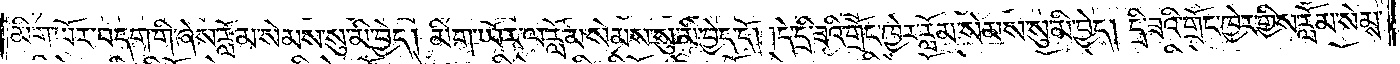མིག་ཡོར་བདག་གི་ཞེས་རློམ་སེམས་སུ་མི་བྱེད། མིག་ཡོར་ལ་རློམ་སེམས་སུ་མི་བྱེད་དོ། །དེ་དྲི་ཟའི་གྲོང་ཁྱེར་རློམ་སེམས་སུ་མི་བྱེད། དྲི་ཟའི་གྲོང་ཁྱེར་གྱིས་རློམ་སེམས་
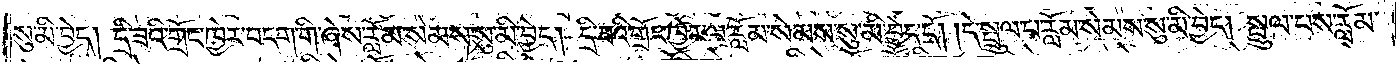སུ་མི་བྱེད། དྲི་ཟའི་གྲོང་ཁྱེར་བདག་གི་ཞེས་རློམ་སེམས་སུ་མི་བྱེད། དྲི་ཟའི་གྲོང་ཁྱེར་ལ་རློམ་སེམས་སུ་མི་བྱེད་དོ། །དེ་སྤྲུལ་པ་རློམ་སེམས་སུ་མི་བྱེད། སྤྲུལ་པས་རློམ་
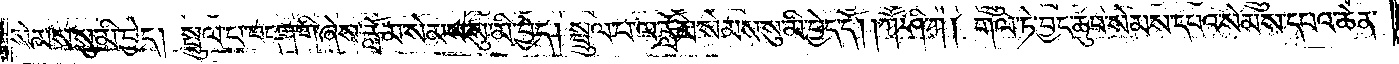སེམས་སུ་མི་བྱེད། སྤྲུལ་པ་བདག་གི་ཞེས་རློམ་སེམས་སུ་མི་བྱེད། སྤྲུལ་པ་ལ་རློམ་སེམས་སུ་མི་བྱེད་དོ། །ཀཽ་ཤི་ཀ། གལ་ཏེ་བྱང་ཆུབ་སེམས་དཔའ་སེམས་དཔའ་ཆེན་
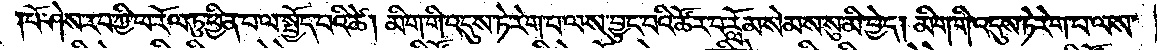པོ་ཤེས་རབ་ཀྱི་ཕ་རོལ་ཏུ་ཕྱིན་པ་ལ་སྤྱོད་པའི་ཚེ། མིག་གི་འདུས་ཏེ་རེག་པ་ལས་བྱུང་བའི་ཚོར་བ་རློམ་སེམས་སུ་མི་བྱེད། མིག་གི་འདུས་ཏེ་རེག་པ་ལས་
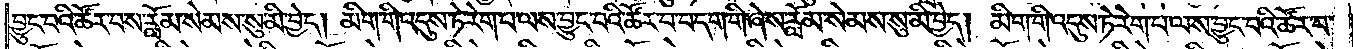བྱུང་བའི་ཚོར་བས་རློམ་སེམས་སུ་མི་བྱེད། མིག་གི་འདུས་ཏེ་རེག་པ་ལས་བྱུང་བའི་ཚོར་བ་བདག་གི་ཞེས་རློམ་སེམས་སུ་མི་བྱེད། མིག་གི་འདུས་ཏེ་རེག་པ་ལས་བྱུང་བའི་ཚོར་བ་
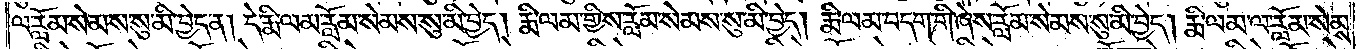ལ་རློམ་སེམས་སུ་མི་བྱེད་ན། དེ་རྨི་ལམ་རློམ་སེམས་སུ་མི་བྱེད། རྨི་ལམ་གྱིས་རློམ་སེམས་སུ་མི་བྱེད། རྨི་ལམ་བདག་གི་ཞེས་རློམ་སེམས་སུ་མི་བྱེད། རྨི་ལམ་ལ་རློམ་སེམས་
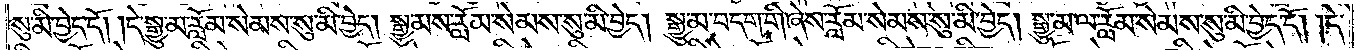སུ་མི་བྱེད་དོ། །དེ་སྒྱུ་མ་རློམ་སེམས་སུ་མི་བྱེད། སྒྱུ་མས་རློམ་སེམས་སུ་མི་བྱེད། སྒྱུ་མ་བདག་གི་ཞེས་རློམ་སེམས་སུ་མི་བྱེད། སྒྱུ་མ་ལ་རློམ་སེམས་སུ་མི་བྱེད་དོ། །དེ་
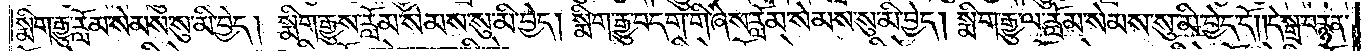སྨིག་རྒྱུ་རློམ་སེམས་སུ་མི་བྱེད། སྨིག་རྒྱུས་རློམ་སེམས་སུ་མི་བྱེད། སྨིག་རྒྱུ་བདག་གི་ཞེས་རློམ་སེམས་སུ་མི་བྱེད། སྨིག་རྒྱུ་ལ་རློམ་སེམས་སུ་མི་བྱེད་དོ། །དེ་སྒྲ་བརྙན་
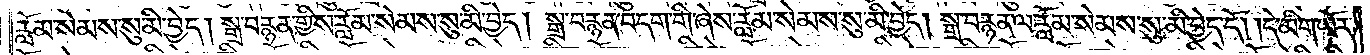རློམ་སེམས་སུ་མི་བྱེད། སྒྲ་བརྙན་གྱིས་རློམ་སེམས་སུ་མི་བྱེད། སྒྲ་བརྙན་བདག་གི་ཞེས་རློམ་སེམས་སུ་མི་བྱེད། སྒྲ་བརྙན་ལ་རློམ་སེམས་སུ་མི་བྱེད་དོ། །དེ་མིག་ཡོར་
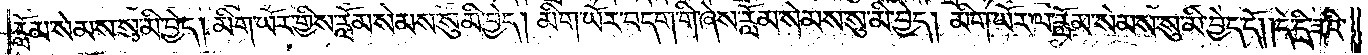རློམ་སེམས་སུ་མི་བྱེད། མིག་ཡོར་གྱིས་རློམ་སེམས་སུ་མི་བྱེད། མིག་ཡོར་བདག་གི་ཞེས་རློམ་སེམས་སུ་མི་བྱེད། མིག་ཡོར་ལ་རློམ་སེམས་སུ་མི་བྱེད་དོ། །དེ་དྲི་ཟའི་
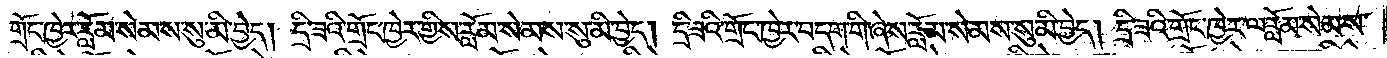གྲོང་ཁྱེར་རློམ་སེམས་སུ་མི་བྱེད། དྲི་ཟའི་གྲོང་ཁྱེར་གྱིས་རློམ་སེམས་སུ་མི་བྱེད། དྲི་ཟའི་གྲོང་ཁྱེར་བདག་གི་ཞེས་རློམ་སེམས་སུ་མི་བྱེད། དྲི་ཟའི་གྲོང་ཁྱེར་ལ་རློམ་སེམས་
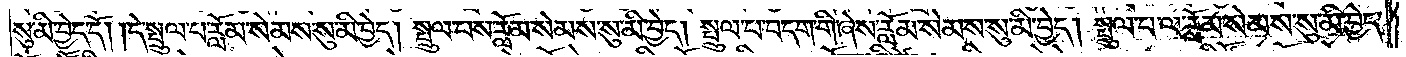སུ་མི་བྱེད་དོ། །དེ་སྤྲུལ་པ་རློམ་སེམས་སུ་མི་བྱེད། སྤྲུལ་པས་རློམ་སེམས་སུ་མི་བྱེད། སྤྲུལ་པ་བདག་གི་ཞེས་རློམ་སེམས་སུ་མི་བྱེད། སྤྲུལ་པ་ལ་རློམ་སེམས་སུ་མི་བྱེད་
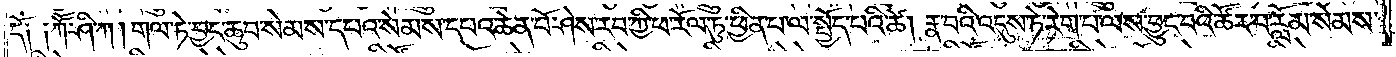དོ༑ ༑ཀཽ་ཤི་ཀ། གལ་ཏེ་བྱང་ཆུབ་སེམས་དཔའ་སེམས་དཔའ་ཆེན་པོ་ཤེས་རབ་ཀྱི་ཕ་རོལ་ཏུ་ཕྱིན་པ་ལ་སྤྱོད་པའི་ཚེ། རྣ་བའི་འདུས་ཏེ་རེག་པ་ལས་བྱུང་བའི་ཚོར་བ་རློམ་སེམས་
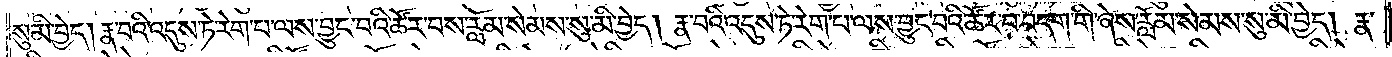སུ་མི་བྱེད། རྣ་བའི་འདུས་ཏེ་རེག་པ་ལས་བྱུང་བའི་ཚོར་བས་རློམ་སེམས་སུ་མི་བྱེད། རྣ་བའི་འདུས་ཏེ་རེག་པ་ལས་བྱུང་བའི་ཚོར་བ་བདག་གི་ཞེས་རློམ་སེམས་སུ་མི་བྱེད། རྣ་
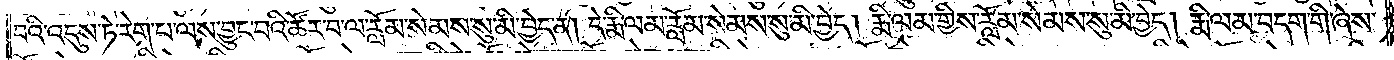བའི་འདུས་ཏེ་རེག་པ་ལས་བྱུང་བའི་ཚོར་བ་ལ་རློམ་སེམས་སུ་མི་བྱེད་ན། དེ་རྨི་ལམ་རློམ་སེམས་སུ་མི་བྱེད། རྨི་ལམ་གྱིས་རློམ་སེམས་སུ་མི་བྱེད། རྨི་ལམ་བདག་གི་ཞེས་
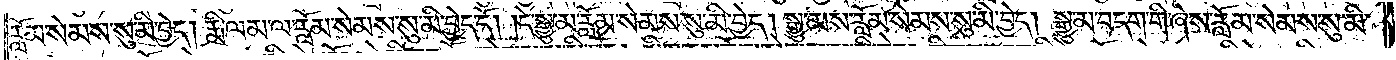རློམ་སེམས་སུ་མི་བྱེད། རྨི་ལམ་ལ་རློམ་སེམས་སུ་མི་བྱེད་དོ། །དེ་སྒྱུ་མ་རློམ་སེམས་སུ་མི་བྱེད། སྒྱུ་མས་རློམ་སེམས་སུ་མི་བྱེད། སྒྱུ་མ་བདག་གི་ཞེས་རློམ་སེམས་སུ་མི་
